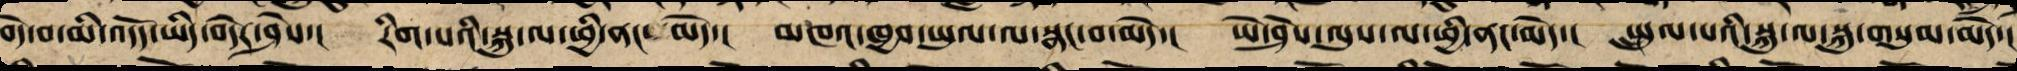བདེ་བ་མི་བདེ་ཡིད་བདེར་ཤེས་། རིག་པའི་སྐུ་ལ་ཕྱི་ནང་མེད་། མཁའ་ཁྱབ་ཡུལ་ལ་སྣང་བ་མེད་། ཡེ་ཤེས་ལུས་ལ་ཕྱི་ནང་མེད་། སྤྲུལ་པའི་སྐུ་ལ་སྐུ་གསུམ་མེད་།
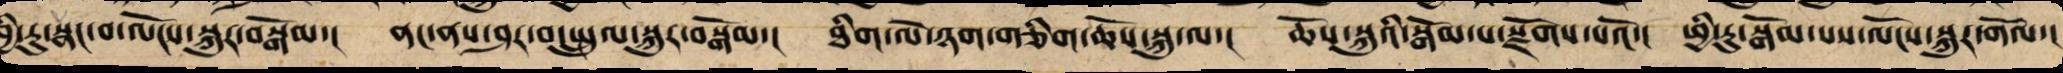ཕྱི་རུ་སྣང་བ་ལོངས་སྐུར་བསྒོམ་། ནང་ནས་ཤར་བ་སྤྲུལ་སྐུར་བསྒོམ་། ཐིག་ལེ་ཉག་གཅིག་ཆོས་སྐུ་ལ་། ཆོས་སྐུའི་སྒོམ་པ་སྫོགས་པའོ་། ཕྱི་རུ་སྒོམ་པས་ལོངས་སྐུར་གོལ་།
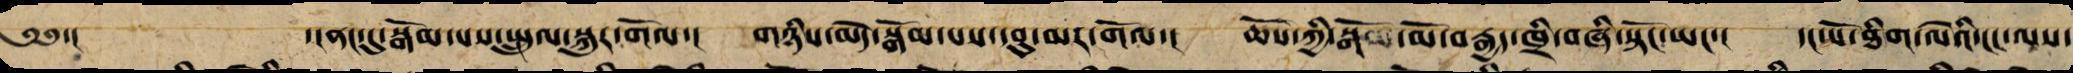༄༅་། ་།ནང་དུ་སྒོམ་པས་སྤྲུལ་སྐུར་གོལ་། གཉིས་མེད་སྒོམ་པས་དབུ་མར་གོལ་། ཆོས་ཀྱི་སྒོ་མོ་བརྒྱད་ཁྲི་བཞི་སྟོང་ཡང་་། དང་པོ་ཐིག་ལེའི་ངང་ལས་
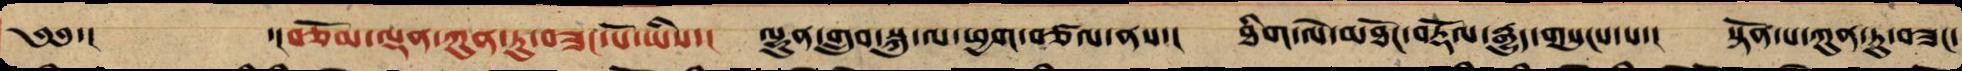༄༅་། ་།བཅོམ་ལྡན་ཀུན་ཏུ་བཟང་པོ་ཡི་། ལྷུན་གྲུབ་སྐུ་ལ་ཕྱག་བཙལ་ནས་། ཐིག་ལེ་མཐོང་བརྡོལ་རྒྱུད་གསུངས་པ་། སྟོན་པ་ཀུན་ཏུ་བཟང་
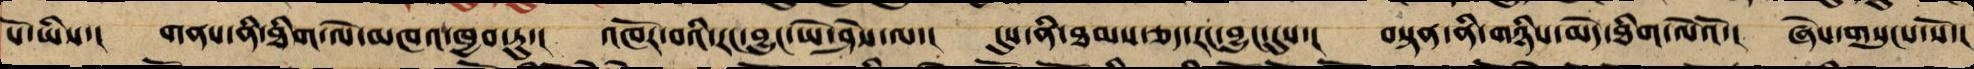པོ་ཡིས་། གནས་ནི་ཐིག་ལེ་མཁའ་ཁྱབ་ཏུ་། འཁོར་ནི་རང་བྱུང་ཡེ་ཤེས་ལ་། དུས་ནི་ཐམས་ཅད་རང་བྱུང་དུས་། བསྟན་ནི་གཉིས་མེད་ཐིག་ལེའོ་། ཞེས་གསུངས་སོ་།
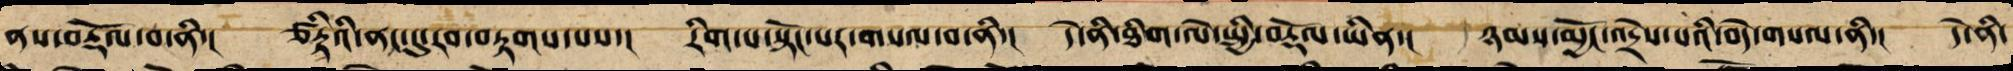ནས་བརྡོལ་བ་ནི་། ཙིཏྟའི་ནང་དུ་རབ་བརྟགས་པས་། རིག་པ་སྟོང་པར་གསལ་བ་ནི་། དེ་ནི་ཐིག་ལེ་སྤྱི་བརྡོལ་ཡིན་། ཉམས་མྱོང་འདྲེས་པའི་བདེ་གསལ་ནི་། དེ་ནི་
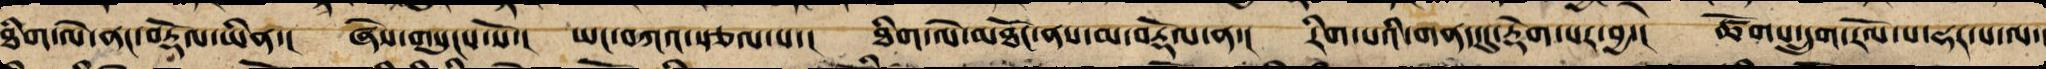ཐིག་ལེ་ནང་བརྡོལ་ཡིན་། ཞེས་གསུངས་སོ་། ཡང་བཀའ་སྩལ་པ་། ཐིག་ལེ་མཐོང་ནས་མ་བརྡོལ་ན་། རིག་པའི་གནད་དུ་རྡེག་པར་བྱ་། ཚོགས་དྲུག་རོལ་པ་ཧར་པ་ལས་
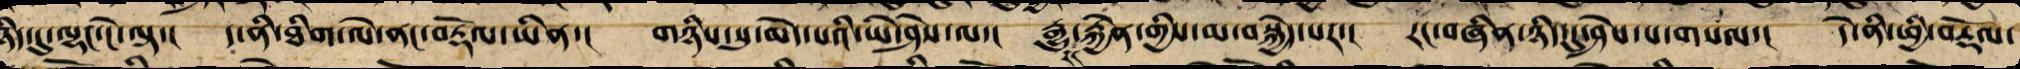ཉིད་དུ་ལྷང་ངེ་བལྟ། །དེ་ནི་ཐིག་ལེ་ནང་བརྡོལ་ཡིན། །གཉིས་སུ་མེད་པའི་ཡེ་ཤེས་ལ། །རྒྱུ་དང་རྐྱེན་གྱིས་མ་བསྐྱེད་པར། །རང་བཞིན་ཉིད་དུ་ཤེས་པ་གསལ། །དེ་ནི་ཕྱི་བརྡོལ་
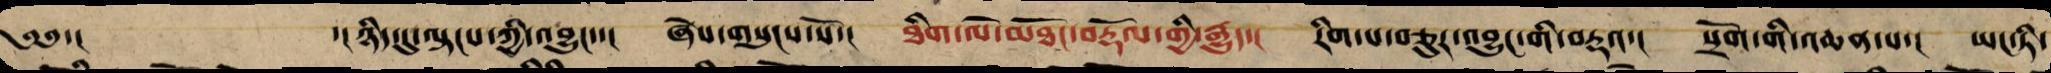༄༅་། ་།ཉིད་དུ་ལྟངས་ཀྱི་འབྱུང་་། ཞེས་གསུངས་སོ་། ཐིག་ལེ་མཐོང་བརྡོལ་གྱི་རྒྱུད་། རིག་པ་བཅུར་འབྱུང་གི་བརྡའ་། སྲོག་གི་འཆན་པ་། ཡང་ཏི་
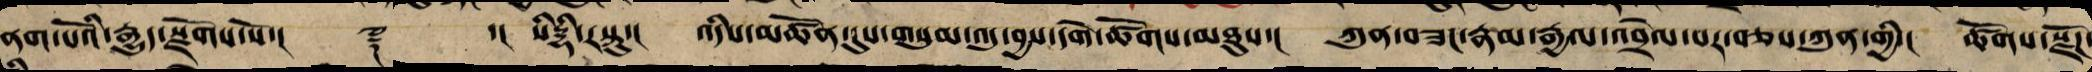ནག་པོའི་རྒྱུད་རྫོགས་སོ་།། ༈ ་། སིདྡྷི་རསྟུ་། འདིས་མཚོན་དུས་གསུམ་འདུ་བྱས་དགེ་ཚོགས་མཐུས་། ཀུན་བཟང་རྣམ་རྒྱལ་འབྲེལ་པར་བཅས་ཀུན་གྱི་། ཚོགས་རྫོཌ་
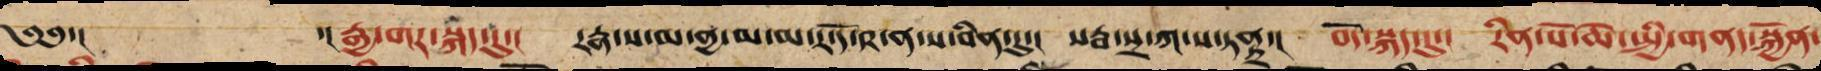༄༅་། ་།རྒྱ་གར་སྐད་དུ་། རཏྣ་ས་མ་ནྱ་མ་མ་ར་དོ་ཥ་ན་ས་བིན་དུ་། སརྦ་སྲ་ཀ་ས་ཏནྟྲ་། བོད་སྐད་དུ་། རིན་པོ་ཆེ་སྤྱི་གནད་སྐྱོན་
